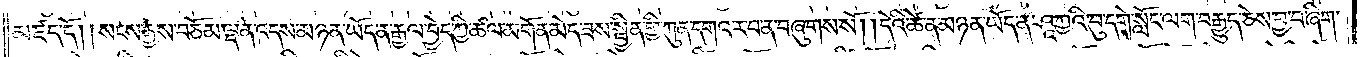མཛད་དོ། །སངས་རྒྱས་བཅོམ་ལྡན་འདས་མཉན་ཡོད་ན་རྒྱལ་བྱེད་ཀྱི་ཚལ་མགོན་མེད་ཟས་སྦྱིན་གྱི་ཀུན་དགའ་ར་བ་ན་བཞུགས་སོ། །དེའི་ཚེ་ན་མཉན་ཡོད་ན་ཤཱཀྱའི་བུ་དགེ་སློང་ལག་བརྒྱུད་ཅེས་བྱ་བ་ཞིག་
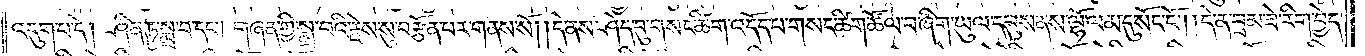འདུག་པ་དེ། ཤིན་ཏུ་སྨྲ་བ་དང༌། གཞན་གྱི་སྨྲ་བའི་རྗེས་སུ་བརྩོན་པར་གནས་སོ། །དེ་ནས་ཤེད་བུ་གསང་ཚིག་འདོད་པ་གསང་ཚིག་ཚོལ་བ་ཞིག་ཡུལ་དབུས་ནས་ལྷོ་ལམ་དུ་སོང་ངོ༌། །དེ་ན་བྲམ་ཟེ་རིག་བྱེད་
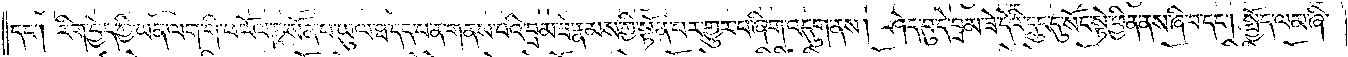དང༌། རིག་བྱེད་ཀྱི་ཡན་ལག་གི་ཕ་རོལ་ཏུ་སོན་པ་ཡུལ་ཐ་དད་པ་ན་གནས་པའི་བྲམ་ཟེ་རྣམས་ཀྱི་སྟོན་པར་གྱུར་པ་ཞིག་འདུག་ནས། ཤེད་བུ་དེ་བྲམ་ཟེ་དེའི་དྲུང་དུ་སོང་སྟེ་ཕྱིན་ནས་ཞི་བ་དང༌། སྤྱོད་ལམ་ཞི་
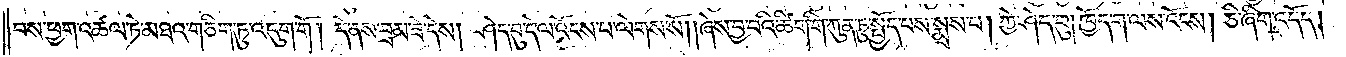བས་ཕྱག་འཚལ་ཏེ་མཐའ་གཅིག་ཏུ་འདུག་གོ། དེ་ནས་བྲམ་ཟེ་དེས། ཤེད་བུ་དེ་ལ་འོངས་པ་ལེགས་སོ། །ཞེས་བྱ་བའི་ཚིག་གི་ཀུན་ཏུ་སྤྱོད་པས་སྨྲས་པ། ཀྱེ་ཤེད་བུ། ཁྱོད་ག་ལས་འོངས། ཅི་ཞིག་འདོད།
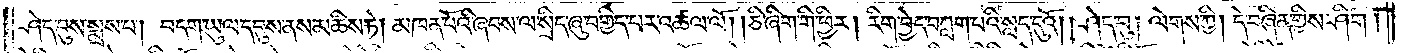ཤེད་བུས་སྨྲས་པ། བདག་ཡུལ་དབུས་ནས་མཆིས་ཏེ། མཁན་པོའི་ཞབས་ལ་སྲིད་ཞུ་བགྱིད་པར་འཚལ་ལོ། །ཅི་ཞིག་གི་ཕྱིར། རིག་བྱེད་བཀླག་པའི་སླད་དུའོ། །ཤེད་བུ། ལེགས་ཀྱི། དེ་བཞིན་གྱིས་ཤིག།
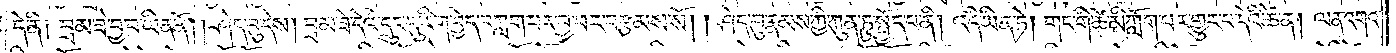དེ་ནི༑ བྲམ་ཟེ་བྱ་བ་ཡིན་ནོ། །ཤེད་བུ་དེས། བྲམ་ཟེ་དེའི་དྲུང་དུ་རིག་བྱེད་བཀླག་པར་བྱ་བར་བརྩམས་སོ། །ཤེད་བུ་རྣམས་ཀྱི་ཀུན་ཏུ་སྤྱོད་པ་ནི། འདི་ཡིན་ཏེ། གང་གི་ཚེ་མི་ཀློག་པར་གྱུར་པ་དེའི་ཚེ་ན། ལན་འགའ་
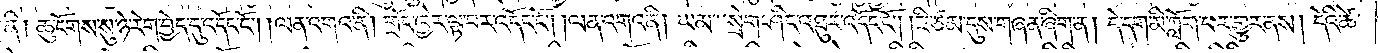ནི། ཆུ་ངོགས་སུ་ཉེ་རེག་བྱེད་དུ་འདོང་ངོ༌། །ལན་འགའ་ནི། གྲོང་ཁྱེར་ལྟ་བར་འདོང་ངོ༌། །ལན་འགའ་ནི། ཡམ་སྲེག་ཤིང་འཐུར་འདོང་ངོ༌། །ཇི་ཙམ་དུས་གཞན་ཞིག་ན། དེ་དག་མི་ཀློག་པར་གྱུར་ནས། དེའི་ཚེ་
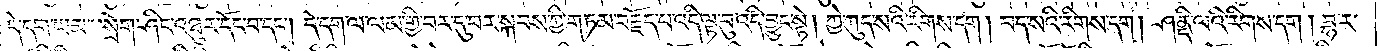དེ་དག་ཡམ་སྲེག་ཤིང་འཐུར་དོང་བ་དང༌། དེ་དག་ལ་ལམ་གྱི་བར་དུ་བར་སྐབས་ཀྱི་གཏམ་བརྗོད་པ་འདི་ལྟ་བུ་འདི་བྱུང་སྟེ། ཀྱེ་ཀུད་སའི་རིགས་དག། བད་སའི་རིགས་དག། ཤནྡི་ལའི་རིགས་དག། བྷ་ར་
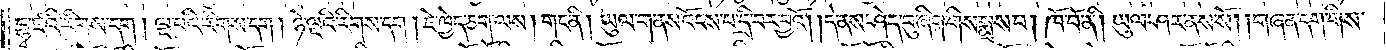དྷྭ་ཛའི་རིགས་དང༌། ལྔ་པའི་རིགས་དག། ཉེ་ལྔའི་རིགས་དག །ཇེ་ཁྱེད་ཅག་ལས། གང་ནི། ཡུལ་གནས་འོངས་པ་དྲི་བར་བྱའོ། །དེ་ནས་ཤེད་བུ་ཞིག་གིས་སྨྲས་པ། ཁོ་བོ་ནི། ཡུལ་ཤར་ནས་སོ། །གཞན་དག་གིས་
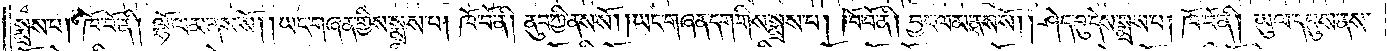སྨྲས་པ། ཁོ་བོ་ནི། ལྷོ་ལམ་ནས་སོ། །ཡང་གཞན་གྱིས་སྨྲས་པ། ཁོ་བོ་ནི། ནུབ་ཀྱི་ནས་སོ། །ཡང་གཞན་དག་གིས་སྨྲས་པ། ཁོ་བོ་ནི། བྱང་ལམ་ནས་སོ། །ཤེད་བུ་དེས་སྨྲས་པ། ཁོ་བོ་ནི། ཡུལ་དབུས་ནས་
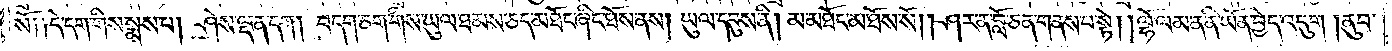སོ༑ ༑དེ་དག་གིས་སྨྲས་པ། ཤེས་ལྡན་དག། བདག་ཅག་གིས་ཡུལ་ཐམས་ཅད་མཐོང་ཞིང་ཐོས་ནས། ཡུལ་དབུས་ནི། མ་མཐོང་མ་ཐོས་སོ། །ཤར་ན་བློ་ཅན་གནས་པ་སྟེ། །ལྷོ་ལམ་ན་ནི་ཡོན་བྱེད་འདུག །ནུབ་
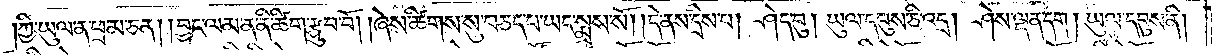ཀྱི་ཡུལ་ན་ཕྲ་མ་ཅན། །བྱང་ལམ་ན་ནི་ཚིག་རྩུབ་བོ། །ཞེས་ཚིགས་སུ་བཅད་པ་ཡང་སྨྲས་སོ། །དེ་ནས་དྲིས་པ། ཤེད་བུ། ཡུལ་དབུས་ཅི་འདྲ། ཤེས་ལྡན་དག། ཡུལ་དབུས་ནི།
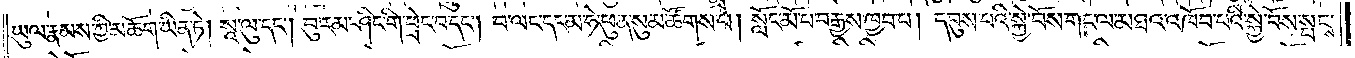ཡུལ་རྣམས་ཀྱི་མཆོག་ཡིན་ཏེ། སཱ་ལུ་དང༌། བུ་རམ་ཤིང་གི་ཕྲེང་བ་དང༌། བ་ལང་དང་མ་ཧེ་ཕུན་སུམ་ཚོགས་པ། སློང་མོ་པ་བརྒྱས་ཁྱབ་པ། དབུས་པའི་སྐྱེ་བོས་གང་ལ་མཐའ་འཁོབ་པའི་སྐྱེ་བོས་སྤངས་
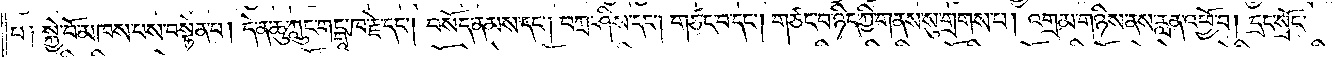པ༑ སྐྱེ་བོ་མཁས་པས་བསྟེན་པ། དེ་ན་ཆུ་ཀླུང་གངྒཱ་ཁ་རྗེ་དང༌། བསོད་ནམས་དང༌། བཀྲ་ཤིས་དང༌། གཙང་བ་དང༌། གཙང་བ་ཉིད་ཀྱི་གནས་སུ་གྲགས་པ། འགྲམ་གཉིས་ནས་རླན་འཕྱོ་བ། དྲང་སྲོང་
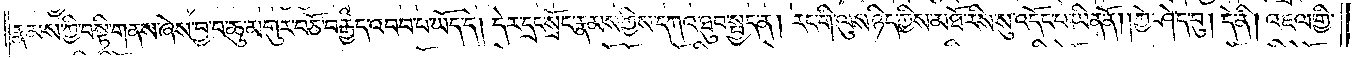རྣམས་ཀྱི་བསྟི་གནས་ཞེས་བྱ་བ་ཆུ་མགུར་བཅོ་བརྒྱད་འབབ་པ་ཡོད་དེ། དེར་དྲང་སྲོང་རྣམས་ཀྱིས་དཀའ་ཐུབ་སྤྱད་ན། རང་གི་ལུས་ཉིད་ཀྱིས་མཐོ་རིས་སུ་འདོང་པ་ཡིན་ནོ། །ཀྱེ་ཤེད་བུ། དེ་ནི། འཇལ་གྱི་
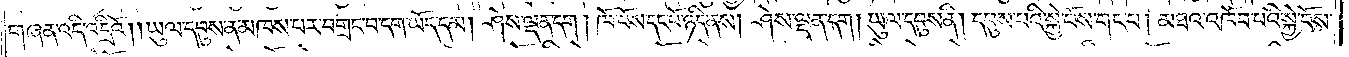གཞན་འདི་འདྲིའོ། །ཡུལ་དབུས་ན་མཁས་པར་བགྲང་བ་དག་ཡོད་དམ། ཤེས་ལྡན་དག། ཁོ་བོས་དང་པོ་ཉིད་ནས། ཤེས་ལྡན་དག། ཡུལ་དབུས་ནི། དབུས་པའི་སྐྱེ་བོས་གང་བ། མཐའ་འཁོབ་པའི་སྐྱེ་བོས་
